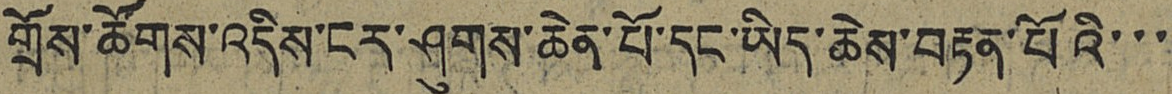གྲོས་ཚོགས་འདིས་ངར་ཤུགས་ཆེན་པོ་དང་ཡིད་ཆེས་བརྟན་པོའི་་་
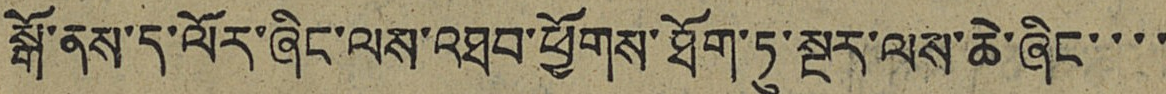སྒོ་ནས་ད་ལོར་ཞིང་ལས་འཐབ་ཕྱོགས་ཐོག་ཏུ་སྔར་ལས་ཆེ་ཞིང་་་་
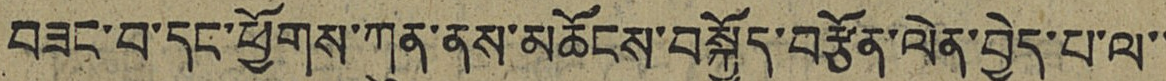བཟང་བ་དང་ཕྱོགས་ཀུན་ནས་མཆོངས་བསྐྱོད་བརྩོན་ལེན་བྱེད་པ་ལ་་
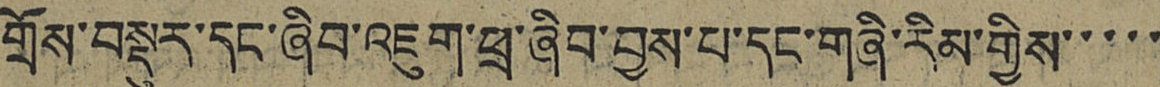གྲོས་བསྡུར་དང་ཞིབ་འཇུག་ཕྲ་ཞིབ་བྱས་པ་དང་གཞི་རིམ་གྱིས་་་་་
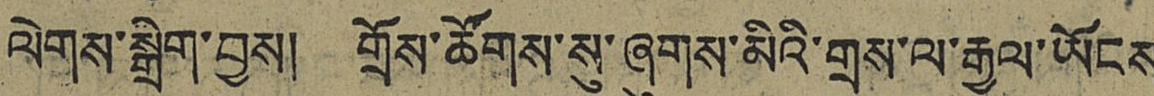ལེགས་སྒྲིག་བྱས། གྲོས་ཚོགས་སུ་ཞུགས་མིའི་གྲས་ལ་རྒྱལ་ཡོངས་
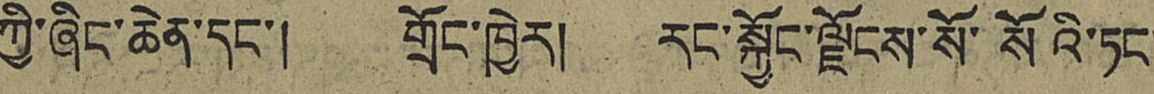ཀྱི་ཞིང་ཆེན་དང་། གྲོང་ཁྱེར། རང་སྐྱོང་ལྗོངས་སོ་སོའི་ཏང་
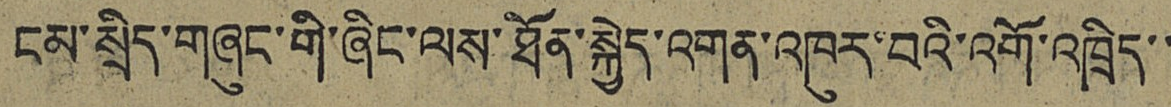ངམ་སྲིད་གཞུང་གི་ཞིང་ལས་ཐོན་སྐྱེད་འགན་འཁུར་བའི་འགོ་འཁྲིད་་
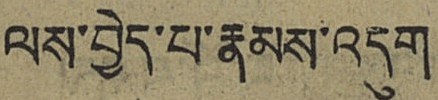ལས་བྱེད་པ་རྣམས་འདུག
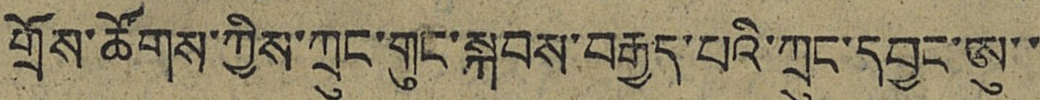གྲོས་ཚོགས་ཀྱིས་ཀྲུང་གུང་སྐབས་བརྒྱད་པའི་ཀྲུང་དབྱང་ཨུ་་
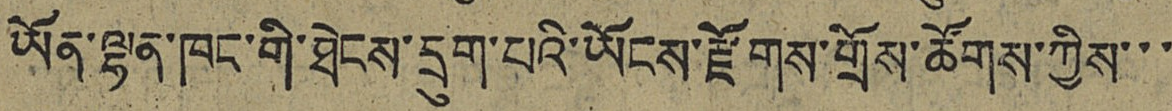ཡོན་ལྷན་ཁང་གི་ཐེངས་དྲུག་པའི་ཡོངས་རྫོགས་གྲོས་ཚོགས་ཀྱིས་་་
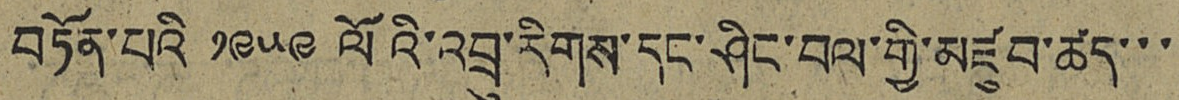བཏོན་པའི ༡༩༥༩ ལོའི་འབྲུ་རིགས་དང་ཤིང་བལ་གྱི་མཛུབ་ཚད་་་
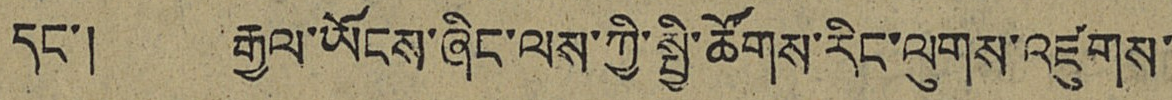དང་། རྒྱལ་ཡོངས་ཞིང་ལས་ཀྱི་སྤྱི་ཚོགས་རིང་ལུགས་འཛུགས་
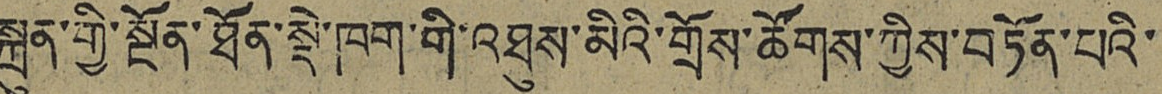སྐྲུན་གྱི་སྔོན་ཐོན་སྡེ་ཁག་གི་འཐུས་མིའི་གྲོས་ཚོགས་ཀྱིས་བཏོན་པའི་
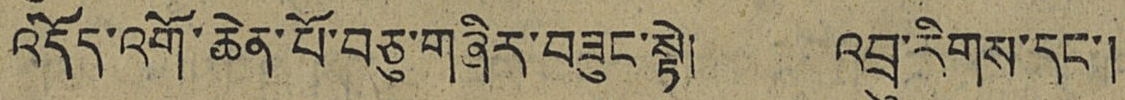འདོད་འགོ་ཆེན་པོ་བཅུ་གཞིར་བཟུང་སྟེ། འབྲུ་རིགས་དང་།
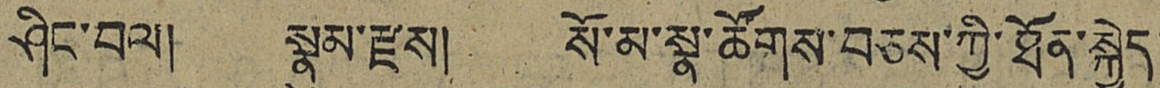ཤིང་བལ། སྣམ་རྫས། སོ་མ་སྣ་ཚོགས་བཅས་ཀྱི་ཐོན་སྐྱེད་
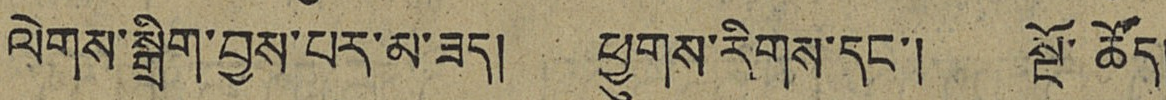ལེགས་སྒྲི་བྱས་པར་མ་ཟད། ཕྱུགས་རིགས་དང་། སྔོ་ཚོད།
